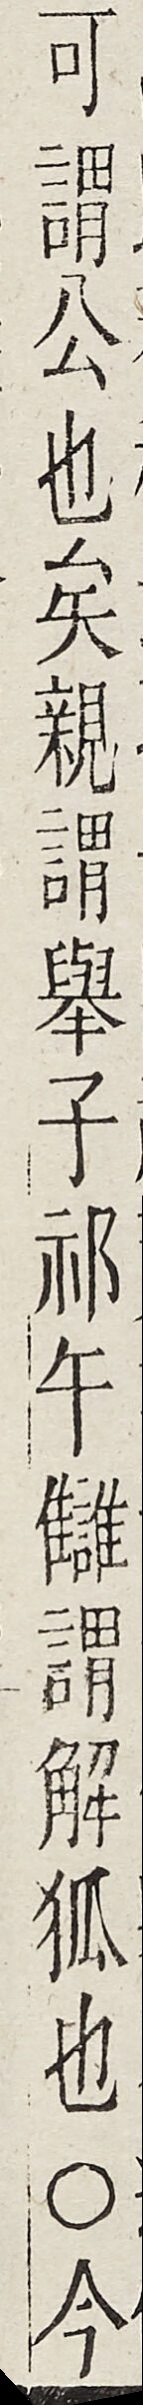可謂公也矣親謂舉子祁午讎謂解狐也○今
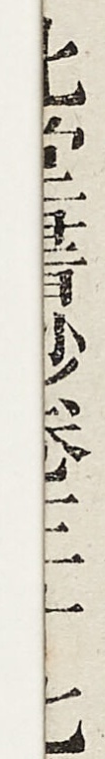北堂書鈔卷第三十七
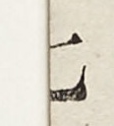七
